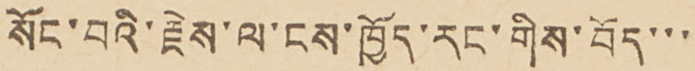སོང་བའི་རྗེས་ལ་ངས་ཁྱོད་རང་གིས་བོད་་་
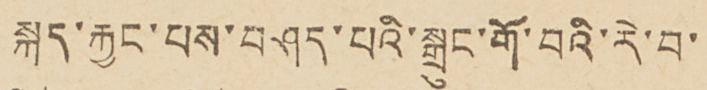སྐད་རྐྱང་པས་བཤད་པའི་སྒྲུང་གོ་བའི་རེ་བ་
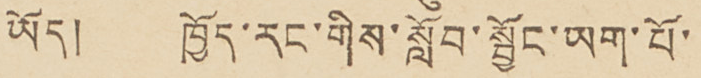ཡོད། ཁྱོད་རང་གིས་སློབ་སྦྱོང་ཡག་པོ་
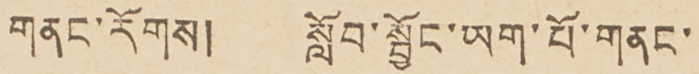གནང་རོགས། སློབ་སྦྱོང་ཡག་པོ་གནང་
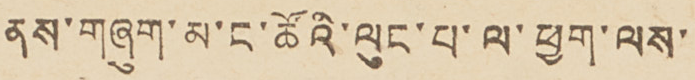ནས་གཞུག་མ་ང་ཚོའི་ལུང་པ་ལ་ཕྱག་ལས་
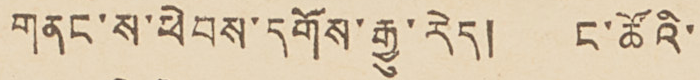གནང་ས་ཕེབས་དགོས་རྒྱུ་རེད། ང་ཚོའི་
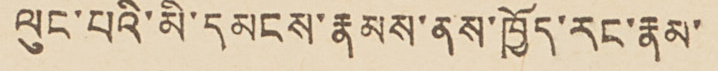ལུང་པའི་མི་དམངས་རྣམས་ནས་ཁྱོད་རང་རྣམ་
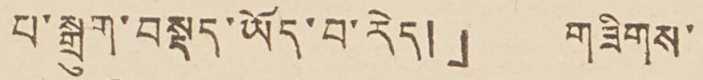པ་སྒྲུག་བསྡད་ཡོད་པ་རེད།」 གཟིགས་
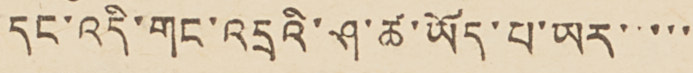དང་འདི་གང་འདྲའི་ཤ་ཚ་ཡོད་པ་ཡར་་་་་
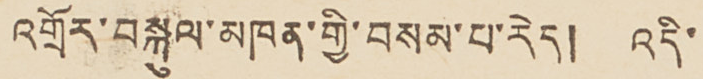འགྲོར་བསྐུལ་མཁན་གྱི་བསམ་པ་རེད། འདི་
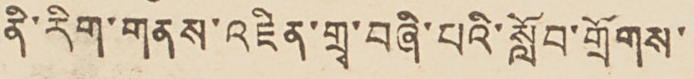ནི་རིག་གནས་འཛིན་གྲྭ་བཞི་པའི་སློབ་གྲོགས་
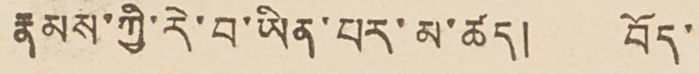རྣམས་ཀྱི་རེ་བ་ཡིན་པར་མ་ཚད། བོད་
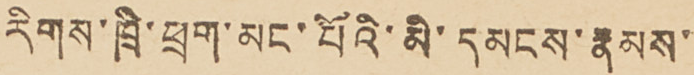རིགས་ཁྲི་ཕྲག་མང་པོའི་མི་དམངས་རྣམས་
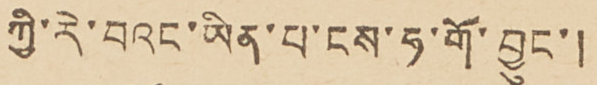ཀྱི་རེ་བའང་ཡིན་པ་ངས་ཧ་གོ་བྱུང་།
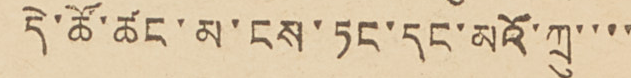དེ་ཚོ་ཚང་མ་ངས་ཏང་དང་མའོ་ཀྲུ་་་་
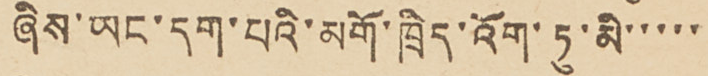ཞིས་ཡང་དག་པའི་མགོ་ཁྲིད་འོག་ཏུ་མི་་་་་
